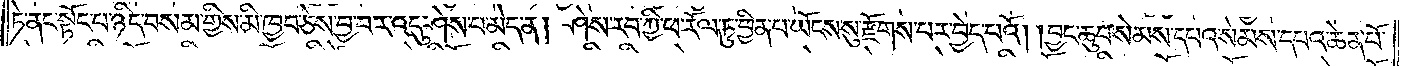ཏེ་ནང་སྟོང་པ་ཉིད་བསམ་གྱིས་མི་ཁྱབ་ཅེས་བྱ་བར་འདུ་ཤེས་པ་མེད་ན། ཤེས་རབ་ཀྱི་ཕ་རོལ་ཏུ་ཕྱིན་པ་ཡོངས་སུ་རྫོགས་པར་བྱེད་པའོ། །བྱང་ཆུབ་སེམས་དཔའ་སེམས་དཔའ་ཆེན་པོ་
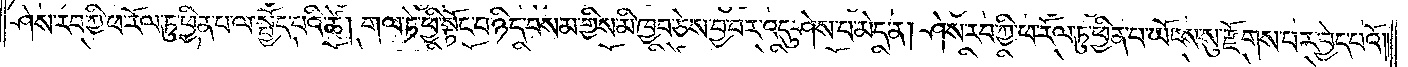ཤེས་རབ་ཀྱི་ཕ་རོལ་ཏུ་ཕྱིན་པ་ལ་སྤྱོད་པའི་ཚེ། གལ་ཏེ་ཕྱི་སྟོང་པ་ཉིད་བསམ་གྱིས་མི་ཁྱབ་ཅེས་བྱ་བར་འདུ་ཤེས་པ་མེད་ན། ཤེས་རབ་ཀྱི་ཕ་རོལ་ཏུ་ཕྱིན་པ་ཡོངས་སུ་རྫོགས་པར་བྱེད་པའོ། །
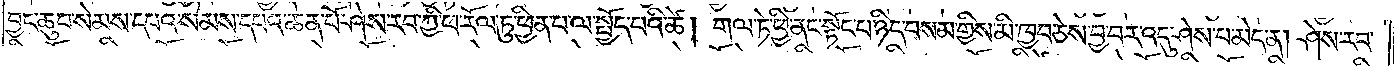བྱང་ཆུབ་སེམས་དཔའ་སེམས་དཔའ་ཆེན་པོ་ཤེས་རབ་ཀྱི་ཕ་རོལ་ཏུ་ཕྱིན་པ་ལ་སྤྱོད་པའི་ཚེ། གལ་ཏེ་ཕྱི་ནང་སྟོང་པ་ཉིད་བསམ་གྱིས་མི་ཁྱབ་ཅེས་བྱ་བར་འདུ་ཤེས་པ་མེད་ན། ཤེས་རབ་
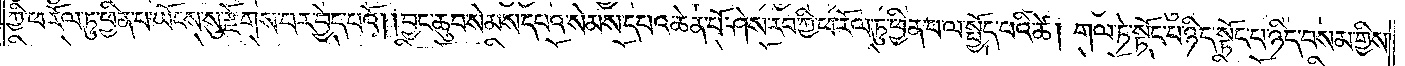ཀྱི་ཕ་རོལ་ཏུ་ཕྱིན་པ་ཡོངས་སུ་རྫོགས་པར་བྱེད་པའོ། །བྱང་ཆུབ་སེམས་དཔའ་སེམས་དཔའ་ཆེན་པོ་ཤེས་རབ་ཀྱི་ཕ་རོལ་ཏུ་ཕྱིན་པ་ལ་སྤྱོད་པའི་ཚེ། གལ་ཏེ་སྟོང་པ་ཉིད་སྟོང་པ་ཉིད་བསམ་གྱིས་
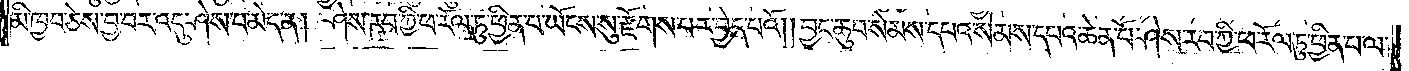མི་ཁྱབ་ཅེས་བྱ་བར་འདུ་ཤེས་པ་མེད་ན། ཤེས་རབ་ཀྱི་ཕ་རོལ་ཏུ་ཕྱིན་པ་ཡོངས་སུ་རྫོགས་པར་བྱེད་པའོ། །བྱང་ཆུབ་སེམས་དཔའ་སེམས་དཔའ་ཆེན་པོ་ཤེས་རབ་ཀྱི་ཕ་རོལ་ཏུ་ཕྱིན་པ་ལ་
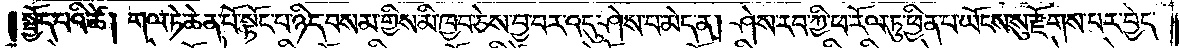སྤྱོད་པའི་ཚེ། གལ་ཏེ་ཆེན་པོ་སྟོང་པ་ཉིད་བསམ་གྱིས་མི་ཁྱབ་ཅེས་བྱ་བར་འདུ་ཤེས་པ་མེད་ན། ཤེས་རབ་ཀྱི་ཕ་རོལ་ཏུ་ཕྱིན་པ་ཡོངས་སུ་རྫོགས་པར་བྱེད་
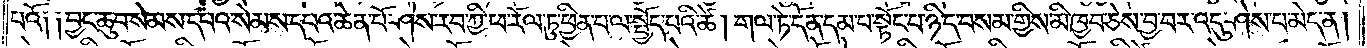པའོ༑ ༑བྱང་ཆུབ་སེམས་དཔའ་སེམས་དཔའ་ཆེན་པོ་ཤེས་རབ་ཀྱི་ཕ་རོལ་ཏུ་ཕྱིན་པ་ལ་སྤྱོད་པའི་ཚེ། གལ་ཏེ་དོན་དམ་པ་སྟོང་པ་ཉིད་བསམ་གྱིས་མི་ཁྱབ་ཅེས་བྱ་བར་འདུ་ཤེས་པ་མེད་ན།
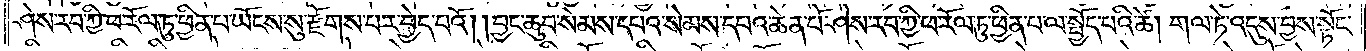ཤེས་རབ་ཀྱི་ཕ་རོལ་ཏུ་ཕྱིན་པ་ཡོངས་སུ་རྫོགས་པར་བྱེད་པའོ། །བྱང་ཆུབ་སེམས་དཔའ་སེམས་དཔའ་ཆེན་པོ་ཤེས་རབ་ཀྱི་ཕ་རོལ་ཏུ་ཕྱིན་པ་ལ་སྤྱོད་པའི་ཚེ། གལ་ཏེ་འདུས་བྱས་སྟོང་
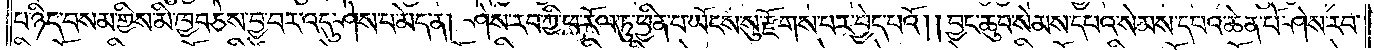པ་ཉིད་བསམ་གྱིས་མི་ཁྱབ་ཅེས་བྱ་བར་འདུ་ཤེས་པ་མེད་ན། ཤེས་རབ་ཀྱི་ཕ་རོལ་ཏུ་ཕྱིན་པ་ཡོངས་སུ་རྫོགས་པར་བྱེད་པའོ། །བྱང་ཆུབ་སེམས་དཔའ་སེམས་དཔའ་ཆེན་པོ་ཤེས་རབ་
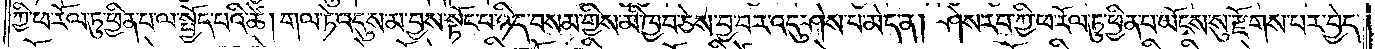ཀྱི་ཕ་རོལ་ཏུ་ཕྱིན་པ་ལ་སྤྱོད་པའི་ཚེ། གལ་ཏེ་འདུས་མ་བྱས་སྟོང་པ་ཉིད་བསམ་གྱིས་མི་ཁྱབ་ཅེས་བྱ་བར་འདུ་ཤེས་པ་མེད་ན། ཤེས་རབ་ཀྱི་ཕ་རོལ་ཏུ་ཕྱིན་པ་ཡོངས་སུ་རྫོགས་པར་བྱེད་
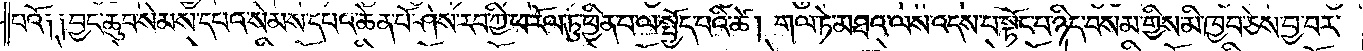པའོ༑ ༑བྱང་ཆུབ་སེམས་དཔའ་སེམས་དཔའ་ཆེན་པོ་ཤེས་རབ་ཀྱི་ཕ་རོལ་ཏུ་ཕྱིན་པ་ལ་སྤྱོད་པའི་ཚེ། གལ་ཏེ་མཐའ་ལས་འདས་པ་སྟོང་པ་ཉིད་བསམ་གྱིས་མི་ཁྱབ་ཅེས་བྱ་བར་
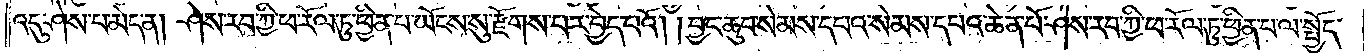འདུ་ཤེས་པ་མེད་ན། ཤེས་རབ་ཀྱི་ཕ་རོལ་ཏུ་ཕྱིན་པ་ཡོངས་སུ་རྫོགས་པར་བྱེད་པའོ། །བྱང་ཆུབ་སེམས་དཔའ་སེམས་དཔའ་ཆེན་པོ་ཤེས་རབ་ཀྱི་ཕ་རོལ་ཏུ་ཕྱིན་པ་ལ་སྤྱོད་
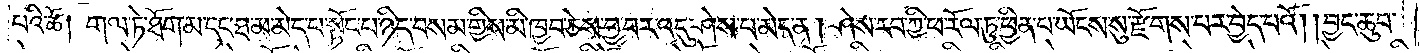པའི་ཚེ། གལ་ཏེ་ཐོག་མ་དང་ཐ་མ་མེད་པ་སྟོང་པ་ཉིད་བསམ་གྱིས་མི་ཁྱབ་ཅེས་བྱ་བར་འདུ་ཤེས་པ་མེད་ན། ཤེས་རབ་ཀྱི་ཕ་རོལ་ཏུ་ཕྱིན་པ་ཡོངས་སུ་རྫོགས་པར་བྱེད་པའོ། །བྱང་ཆུབ་
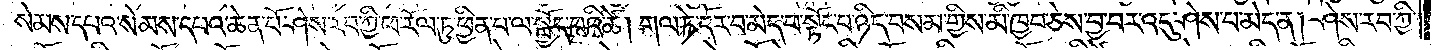སེམས་དཔའ་སེམས་དཔའ་ཆེན་པོ་ཤེས་རབ་ཀྱི་ཕ་རོལ་ཏུ་ཕྱིན་པ་ལ་སྤྱོད་པའི་ཚེ། གལ་ཏེ་དོར་བ་མེད་པ་སྟོང་པ་ཉིད་བསམ་གྱིས་མི་ཁྱབ་ཅེས་བྱ་བར་འདུ་ཤེས་པ་མེད་ན། ཤེས་རབ་ཀྱི་
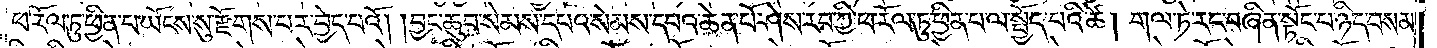ཕ་རོལ་ཏུ་ཕྱིན་པ་ཡོངས་སུ་རྫོགས་པར་བྱེད་པའོ། །བྱང་ཆུབ་སེམས་དཔའ་སེམས་དཔའ་ཆེན་པོ་ཤེས་རབ་ཀྱི་ཕ་རོལ་ཏུ་ཕྱིན་པ་ལ་སྤྱོད་པའི་ཚེ། གལ་ཏེ་རང་བཞིན་སྟོང་པ་ཉིད་བསམ་
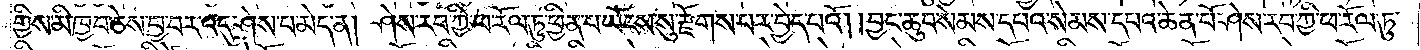གྱིས་མི་ཁྱབ་ཅེས་བྱ་བར་འདུ་ཤེས་པ་མེད་ན། ཤེས་རབ་ཀྱི་ཕ་རོལ་ཏུ་ཕྱིན་པ་ཡོངས་སུ་རྫོགས་པར་བྱེད་པའོ། །བྱང་ཆུབ་སེམས་དཔའ་སེམས་དཔའ་ཆེན་པོ་ཤེས་རབ་ཀྱི་ཕ་རོལ་ཏུ་
